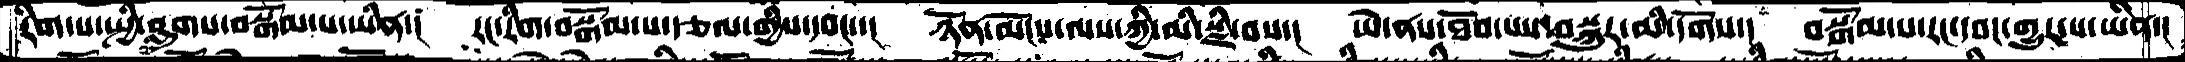རིག་པ་སྤྱི་བླུགས་བསྒོམ་པ་ཡིན་།  རང་རིག་བསྒོམ་པ་རྩལ་གྱིས་དབང་་།  ཉོན་མོངས་ལས་ཀྱི་མི་སྫི་བས་།  ཡེ་ནས་ཐོབ་པས་བསྐུར་མི་དགོས་།  བསྒོམ་པ་རང་དབང་གྱུར་པ་ཡིན་།
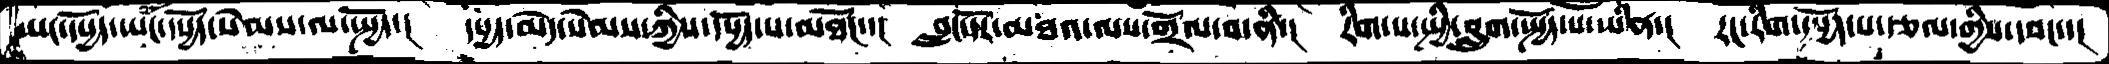ཡང་དཔྱོད་ཡང་དཔྱོད་སེམས་ལ་སྤྱོད་།  དཔྱད་མེད་སེམས་ཀྱིས་དཔྱོད་པ་མཐོང་་།  བླང་དོར་མཐའ་ལས་གྲོལ་བ་ནི་།  རིག་པ་སྤྱི་བླུག་སྤྱོད་པ་ཡིན་།  རང་རིག་སྤྱོད་པ་རྩལ་གྱིས་དབང་་།
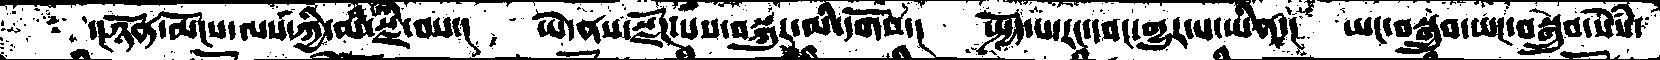་།ཉོན་མོངས་ལས་ཀྱི་མི་སྫི་བས་།  ཡེ་ནས་སྫོཌ་པས་བསྐུར་མི་དགོས་།   སྤྱོད་པ་རང་དབང་གྱུར་པ་ཡིན་།  ཡང་བསྒྲུབ་ཡང་བསྒྲུབ་སེཾས་
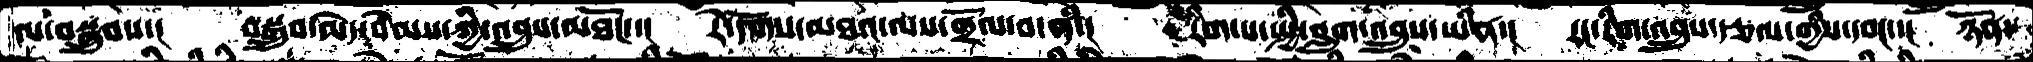ལ་བསྒྲུབས་།  བསྒྲུབ་མེད་སེམས་ཀྱི་འབྲུས་མཐོང་་།  རེ་དོགས་མཐའ་ལས་གྲོལ་བ་ནི་།  རིག་པ་སྤྱི་བླུག་འབྲུས་ཡིན་།  རང་རིག་འབྲུས་རྩལ་གྱིས་དབང་་།  ཉོན་
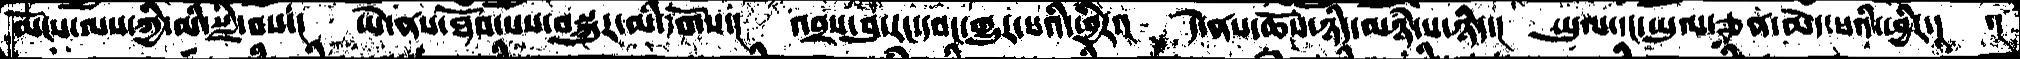མོངས་ལས་ཀྱི་མི་སྫི་བས་།   ཡེ་ནས་ཐོབ་པས་བསྐུར་མི་དགོས་།  འབྲས་བུ་རང་དབང་གྱུར་པའི་ཕྱིར་།  དེ་ནས་ཆོས་ཉིད་མཉཾ་པ་ཉིད་།  ཡུལ་དང་ཡུལ་ཅན་མེད་པའི་ཕྱིར་།  ་།
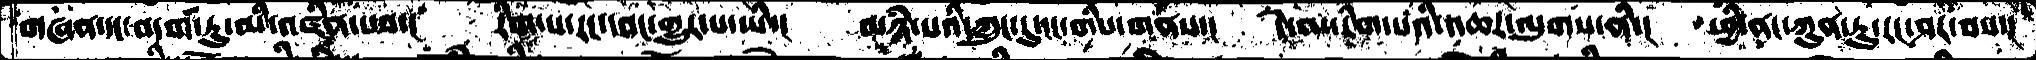གཞན་དང་བདག་ཏུ་མི་འཛིན་པས་།  རིག་པ་རང་དབང་གྱུར་པ་ཡི་།  མཉཾ་པའི་ཀླུང་དུ་ངང་གིས་གནས་།  དེ་ནས་རིག་པའི་འཆར་ལུགས་ནི་།  ཕྱི་ནང་ཀུན་ཏུ་རང་ཤར་བས་།
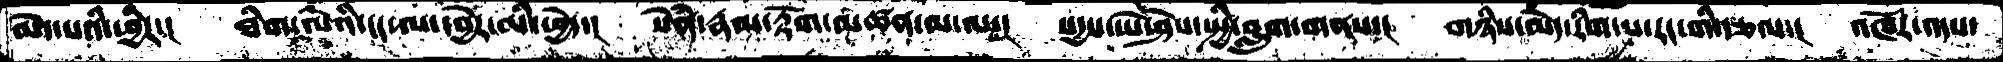མེད་པའི་ཕྱིར་།  ཐིག་ལེའི་ངང་ལ་དབྱེར་མི་ཕྱེད་།  སེནཾ་རྣམ་རྟོག་མཚན་མ་ལ་།  སདྱས་ཡེ་ཤེས་སྤྱི་བླུག་གནས་།  གཉིས་མེད་རིག་པ་རང་གི་རྩལ་།   འཁོར་འདས་
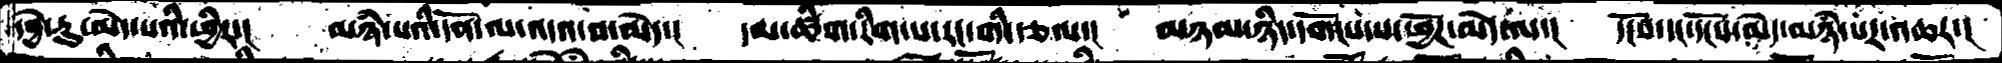དབྱེ་རུ་མེད་པའི་ཕྱིར་།   མཉཾ་པའི་དོན་ལ་འདའ་བ་མེད་།    དམ་ཚིག་རིག་པ་རང་གི་རྩལ་།   མཉམ་ཉིད་དགོངས་པ་ཕྱོཌ་མེད་ལ་།   དངོས་དང་དངོས་མེད་མཉཾ་པར་འཆར་།
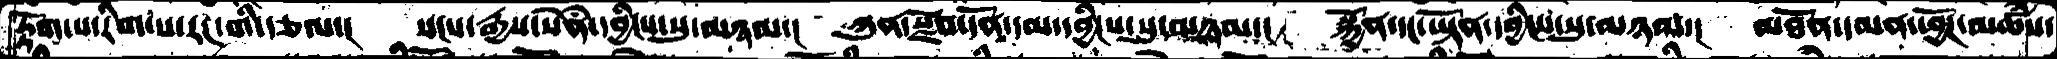རྟོག་པ་རིག་པ་རང་གི་རྩལ་།   སངས་རྒྱས་སེནཾ་དབྱིངས་སུ་མཉམ་།   ཀུན་སྫོབ་དོན་དམ་དབྱིངས་སུ་མཉམ་།  སྐྱོན་དང་ཡྟོན་དབྱིངས་སུ་མཉམ་།   མཐོན་དམན་ཕྱོཌ་མཚཾས་
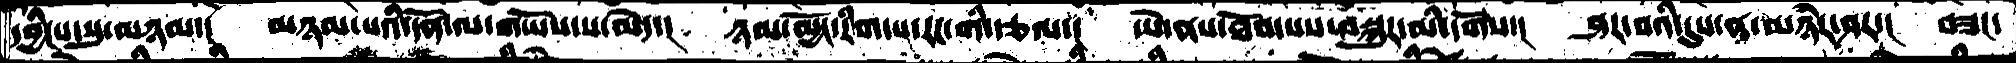དབྱིངས་སུ་མཉམ་།  མཉམ་པའི་དོན་ལ་གཡོས་ས་མེད་།   ཉམ་མྱོང་རིག་པ་རང་གི་རྩལ་།   ཡེ་ནས་ཐོབ་པས་བསྐུར་མིི་དགོས་།     ཤར་བའི་དུས་ན་མཉཾར་ཤར་།   བཟང་
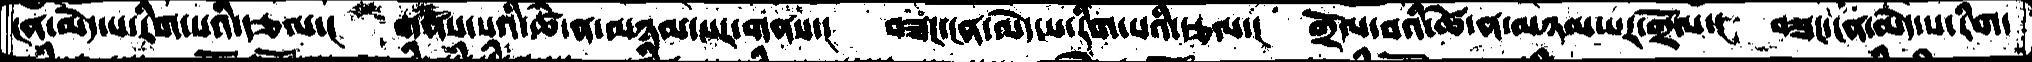ངན་མེེད་པ་རིག་པའི་རྩལ་།   གནས་པའི་ཚེ་ན་མཉམ་པར་གནས་།   བཟང་ངན་མེད་པ་རིག་པའི་རྩལ་།   གྲོལ་བའི་ཚེ་ན་མཉམ་པར་གྲོལ་།   བཟང་ངན་མེད་པ་རིག་
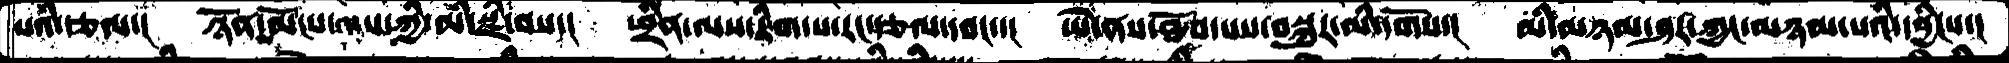པའི་རྩལ་།  ཉོན་མོངས་ལས་ཀྱི་མི་སྫི་བས་།  ཕྲིན་ལས་རིག་པ་རང་རྩལ་དབང་་།  ཡེ་ནས་ཐོབ་པས་བསྐུར་མི་དགོས་།  མི་མཉམ་ཤར་ཀྱང་མཉམ་པའི་དབྱིངས་།
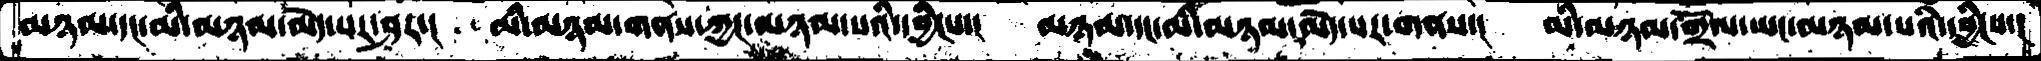མཉམ་དང་མི་མཉམ་མེད་པར་ཤར་།  མི་མཉམ་གནས་ཀྱང་མཉམ་པའི་དབྱིངས་།  མཉམ་དང་མི་མཉམ་མེད་པར་གནས་།  མི་མཉམ་གྲོལ་ཡང་མཉམ་པའི་དབྱིངས་།
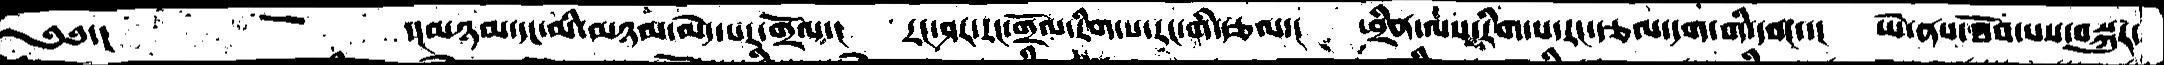༄༅་།       ་།མཉམ་དང་མི་མཉམ་མེད་པར་གྲོལ་།  རང་ཤར་རང་གྲོལ་རིག་པ་རང་གི་རྩལ་།  ཕྲིན་ལས་རིག་པ་རང་རྩལ་དག་གི་དབང་་།  ཡེ་ནས་ཐོས་པས་བསྐུར་
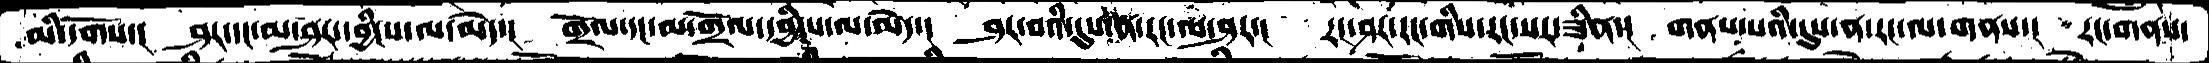མི་དགོས་།  ཤར་དང་མ་ཤར་དབྱིངས་ལ་མེད་།  གྲོལ་དང་མ་གྲོལ་དབྱིངས་ལ་མེད་།  ཤར་བའི་དུས་ན་རང་ལ་ཤར་།  རང་ཤར་རང་གིས་རང་སར་ཟིན་།  གནས་པའི་དུས་ན་རང་ལ་གནས་།  རང་གནས་
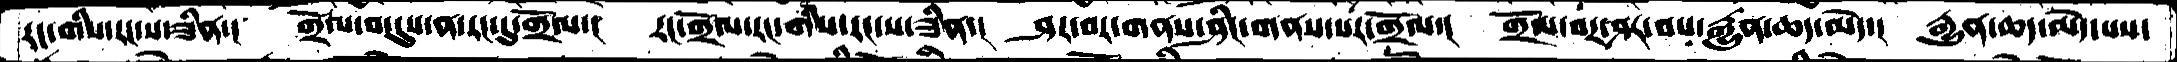རང་གིས་རང་ས་ཡིན་།  གྲོལ་དབང་དུས་ན་རང་དུ་གྲོལ་།  རང་གྲོལ་རང་གིས་རང་ས་ཟིན།  ཤར་བར་གནས་ཤིང་གནས་པར་གྲོལ་།  གྲོལ་བར་ཤར་བས་རྒྱུན་ཆད་མེད་།  རྒྱུན་ཆད་མེད་པས་
